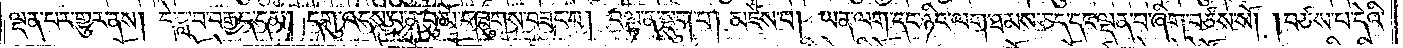ལྡན་པར་གྱུར་ནས། དེ་ཟླ་བ་བརྒྱད་དམ། དགུ་འདས་པ་ན་བུ་མོ་གཟུགས་བཟང་བ། བལྟ་ན་སྡུག་པ། མཛེས་པ། ཡན་ལག་དང་ཉིང་ལག་ཐམས་ཅད་དང་ལྡན་པ་ཞིག་བཙས་སོ། །བཙས་པ་དེའི་
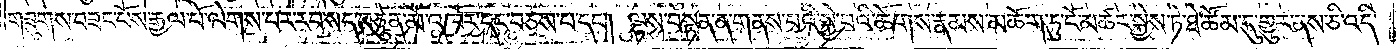གཟུགས་བཟང་པོས་རྒྱལ་པོ་ལེགས་པར་རབ་སད་བཙུན་མོ་འཁོར་དང་བཅས་པ་དང༌། ལྷས་བསྟན་ན་གནས་པའི་སྐྱེ་བའི་ཚོགས་རྣམས་མཆོག་ཏུ་ངོ་མཚར་སྐྱེས་ཏེ་ཐེ་ཚོམ་དུ་གྱུར་ནས་ཅི་འདི་
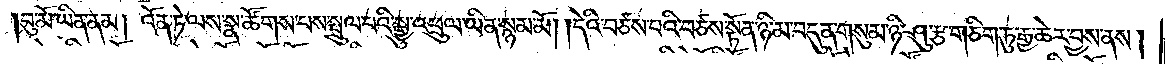།བུ་མོ་ཡིན་ནམ། འོན་ཏེ་ལས་སྣ་ཚོགས་པས་སྤྲུལ་པའི་སྒྱུ་འཕྲུལ་ཡིན་སྙམ་མོ། །དེའི་བཙས་པའི་བཙས་སྟོན་ཉི་མ་བདུན་གསུམ་ཉི་ཤུ་རྩ་གཅིག་ཏུ་རྒྱ་ཆེར་བྱས་ནས།
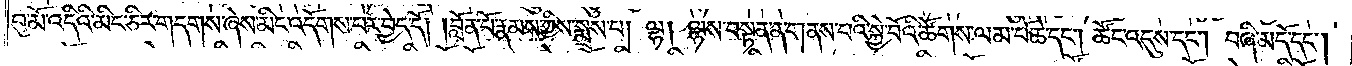བུ་མོ་འདིའི་མིང་ཅིར་གདགས་ཞེས་མིང་འདོགས་པར་བྱེད་དོ། །བློན་པོ་རྣམས་ཀྱིས་སྨྲས་པ། ལྷ། ལྷས་བསྟན་ན་གནས་པའི་སྐྱེ་བོའི་ཚོགས་ལམ་པོ་ཆེ་དང༌། ཚོང་འདུས་དང༌། བཞི་མདོ་དང༌།
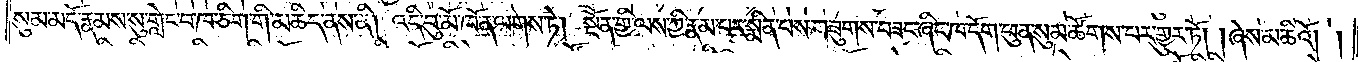སུམ་མདོ་རྣམས་སུ་གླེང་བ་ཁ་ཅིག་གི་མཆིད་ནས་ནི། འདི་བུ་མོ་ཁོ་ན་ལགས་ཏེ། སྔོན་གྱི་ལས་ཀྱི་རྣམ་པར་སྨིན་པས་གཟུགས་བཟང་ཞིང་ཁ་དོག་ཕུན་སུམ་ཚོགས་པར་གྱུར་ཏོ། །ཞེས་མཆིའོ། །
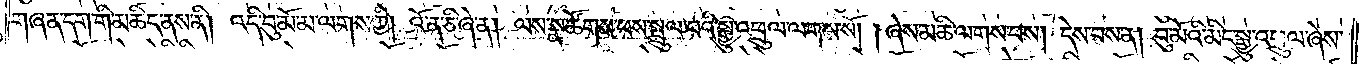གཞན་དག་གི་མཆིད་ནས་ནི། འདི་བུ་མོ་མ་ལགས་ཀྱི། འོ་ན་ཅི་ཞེ་ན། ལས་སྣ་ཚོགས་པས་སྤྲུལ་པའི་སྒྱུ་འཕྲུལ་ལགས་སོ། །ཞེས་མཆི་ལགས་པས། དེས་བས་ན། བུ་མོའི་མིང་སྒྱུ་འཕྲུལ་ཞེས་
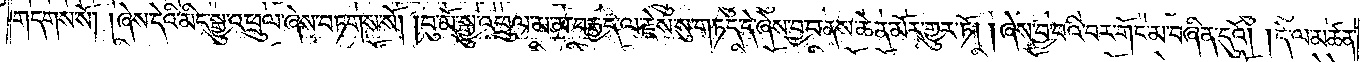གདགས་སོ། །ཞེས་དེའི་མིང་སྒྱུ་འཕྲུལ་ཞེས་བཏགས་སོ། །བུ་མོ་སྒྱུ་འཕྲུལ་མ་མ་བརྒྱད་ལ་རྗེས་སུ་གཏད་དེ་ཞེས་བྱ་བ་ནས་ཆེན་མོར་གྱུར་ཏོ། །ཞེས་བྱ་བའི་བར་གོང་མ་བཞིན་དུའོ། །དེ་ལ་མཚན་
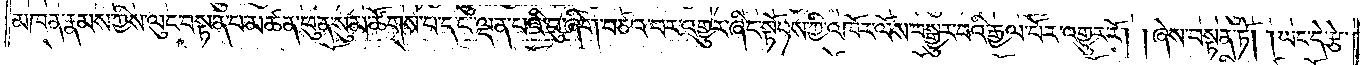མཁན་རྣམས་ཀྱིས་ལུང་བསྟན་པ་མཚན་ཕུན་སུམ་ཚོགས་པ་དང་ལྡན་པའི་བུ་ཞིག་བཙའ་བར་འགྱུར་ཞིང་སྟོབས་ཀྱི་འཁོར་ལོས་བསྒྱུར་བའི་རྒྱལ་པོར་འགྱུར་རོ། །ཞེས་བསྟན་ཏོ། །ཡང་དེ་རྩེ་
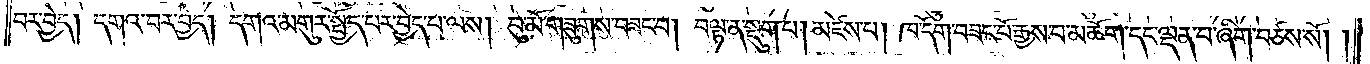བར་བྱེད། དགའ་བར་བྱེད། དགའ་མགུར་སྤྱོད་པར་བྱེད་པ་ལས། བུ་མོ་གཟུགས་བཟང་བ། བལྟ་ན་སྡུག་པ། མཛེས་པ། ཁ་དོག་བཟང་པོ་རྒྱས་པ་མཆོག་དང་ལྡན་པ་ཞིག་བཙས་སོ། །
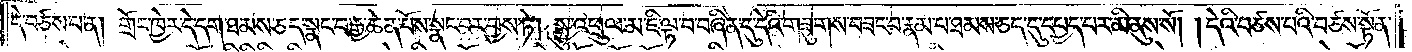དེ་བཙས་པ་ན། གྲོང་ཁྱེར་དེ་དག་ཐམས་ཅད་སྣང་བ་རྒྱ་ཆེན་པོས་སྣང་བར་བྱས་ཏེ། སྒྱུ་འཕྲུལ་མ་ཇི་ལྟ་བ་བཞིན་དུ་དེའི་གཟུགས་བཟང་བ་རྣམ་པ་ཐམས་ཅད་དུ་དཔྱད་པར་མི་ནུས་སོ། །དེའི་བཙས་པའི་བཙས་སྟོན་
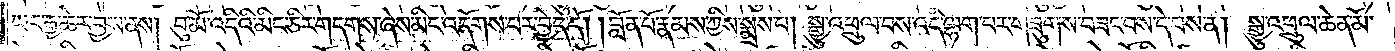ཡང་རྒྱ་ཆེར་བྱས་ནས། བུ་མོ་འདིའི་མིང་ཅིར་གདགས་ཞེས་མིང་འདོགས་པར་བྱེད་དོ། །བློན་པོ་རྣམས་ཀྱིས་སྨྲས་པ། སྒྱུ་འཕྲུལ་བས་འདི་ལྷག་པར་གཟུགས་བཟང་བས་དེ་བས་ན། སྒྱུ་འཕྲུལ་ཆེན་མོ་
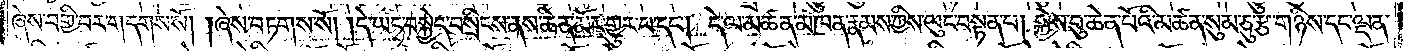ཞེས་བགྱི་བར་གདགས་སོ། །ཞེས་བཏགས་སོ། །དེ་ཡང་བསྐྱེད་བསྲིངས་ནས་ཆེན་མོར་གྱུར་པ་དང༌། དེ་ལ་མཚན་མཁན་རྣམས་ཀྱིས་ལུང་བསྟན་པ། སྐྱེས་བུ་ཆེན་པོའི་མཚན་སུམ་ཅུ་རྩ་གཉིས་དང་ལྡན་
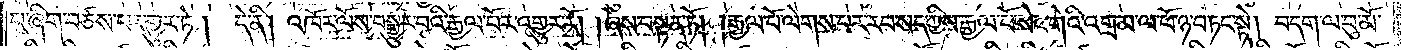པ་ཞིག་བཙས་པར་གྱུར་ཏེ། དེ་ནི། འཁོར་ལོས་བསྒྱུར་བའི་རྒྱལ་པོར་འགྱུར་རོ། །ཞེས་བསྟན་ཏོ། །རྒྱལ་པོ་ལེགས་པར་རབ་སད་ཀྱིས་རྒྱལ་པོ་སེང་གེའི་འགྲམ་ལ་ཕོ་ཉ་བཏང་སྟེ། བདག་ལ་བུ་མོ་
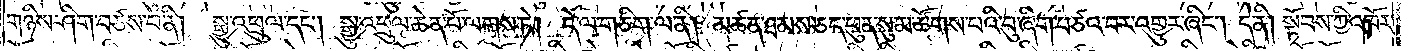གཉིས་ཤིག་བཙས་པ་ནི།<gap>སྒྱུ་འཕྲུལ་དང༌། སྒྱུ་འཕྲུལ་ཆེན་པོ་ལགས་ཏེ། དེ་ལ་གཅིག་ལ་ནི། མཚན་ཐམས་ཅད་ཕུན་སུམ་ཚོགས་པའི་བུ་ཞིག་བཙའ་བར་འགྱུར་ཞིང༌། དེ་ནི། སྟོབས་ཀྱི་འཁོར་
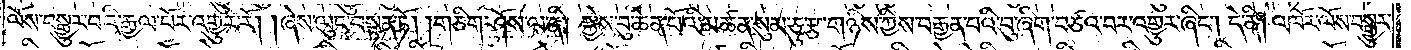ལོས་བསྒྱུར་བའི་རྒྱལ་པོར་འགྱུར་རོ། །ཞེས་ལུང་བསྟན་ཏོ། །གཅིག་ཤོས་ལ་ནི། སྐྱེས་བུ་ཆེན་པོའི་མཚན་སུམ་ཅུ་རྩ་གཉིས་ཀྱིས་བརྒྱན་པའི་བུ་ཞིག་བཙའ་བར་འགྱུར་ཞིང༌། དེ་ནི། འཁོར་ལོས་བསྒྱུར་
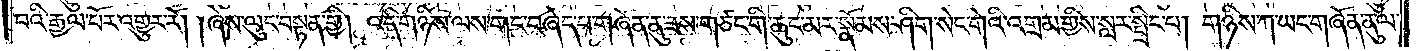བའི་རྒྱལ་པོར་འགྱུར་རོ། །ཞེས་ལུང་བསྟན་གྱི། འདི་གཉིས་ལས་གང་བཞེད་པ་གཞོན་ནུ་ཟས་གཙང་གི་ཆུང་མར་སྣོམས་ཤིག་སེང་གེའི་འགྲམ་གྱིས་སླར་སྤྲིང་པ། གཉིས་ཀ་ཡང་གཞོན་ནུ་ལ་
